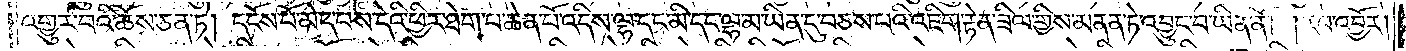འགྱུར་བའི་ཆོས་ཅན་ཏེ། དངོས་པོ་མེད་པས་དེའི་ཕྱིར་ཐེག་པ་ཆེན་པོ་འདིས་ལྷ་དང་མི་དང་ལྷ་མ་ཡིན་དུ་བཅས་པའི་འཇིག་རྟེན་ཟིལ་གྱིས་མནན་ཏེ་འབྱུང་བ་ཡིན་ནོ། །རབ་འབྱོར།
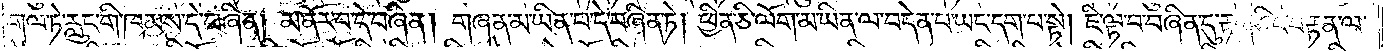གལ་ཏེ་རླུང་གི་ཁམས་དེ་བཞིན། མ་ནོར་བ་དེ་བཞིན། གཞན་མ་ཡིན་པ་དེ་བཞིན་ཏེ། ཕྱིན་ཅི་ལོག་མ་ཡིན་ལ་བདེན་པ་ཡང་དག་པ་སྟེ། ཇི་ལྟ་བ་བཞིན་དུ་རྟག་ཅིང་བརྟན་ལ་
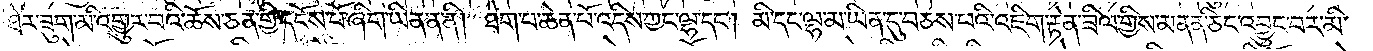ཐེར་ཟུག་མི་འགྱུར་བའི་ཆོས་ཅན་གྱི་དངོས་པོ་ཞིག་ཡིན་ན་ནི། ཐེག་པ་ཆེན་པོ་འདིས་ཀྱང་ལྷ་དང༌། མི་དང་ལྷ་མ་ཡིན་དུ་བཅས་པའི་འཇིག་རྟེན་ཟིལ་གྱིས་མནན་ཅིང་འབྱུང་བར་མི་
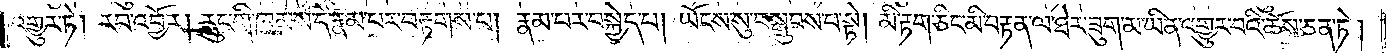འགྱུར་ཏེ། རབ་འབྱོར། རླུང་གི་ཁམས་དེ་རྣམ་པར་བརྟགས་པ། རྣམ་པར་བསྐྱེད་པ། ཡོངས་སུ་བསྒྲུབས་པ་སྟེ། མི་རྟག་ཅིང་མི་བརྟན་ལ་ཐེར་ཟུག་མ་ཡིན་འགྱུར་བའི་ཆོས་ཅན་ཏེ།
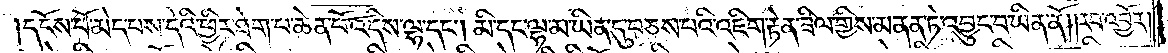དངོས་པོ་མེད་པས་དེའི་ཕྱིར་ཐེག་པ་ཆེན་པོ་འདིས་ལྷ་དང༌། མི་དང་ལྷ་མ་ཡིན་དུ་བཅས་པའི་འཇིག་རྟེན་ཟིལ་གྱིས་མནན་ཏེ་འབྱུང་བ་ཡིན་ནོ། །རབ་འབྱོར།
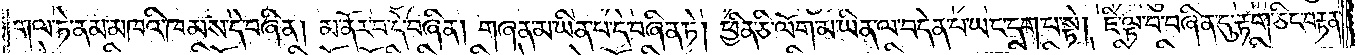གལ་ཏེ་ནམ་མཁའི་ཁམས་དེ་བཞིན། མ་ནོར་བ་དེ་བཞིན། གཞན་མ་ཡིན་པ་དེ་བཞིན་ཏེ། ཕྱིན་ཅི་ལོག་མ་ཡིན་ལ་བདེན་པ་ཡང་དག་པ་སྟེ། ཇི་ལྟ་བ་བཞིན་དུ་རྟག་ཅིང་བརྟན་
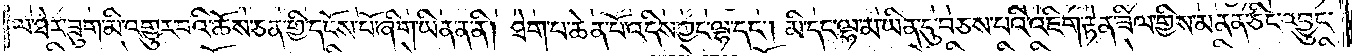ལ་ཐེར་ཟུག་མི་འགྱུར་བའི་ཆོས་ཅན་གྱི་དངོས་པོ་ཞིག་ཡིན་ན་ནི། ཐེག་པ་ཆེན་པོ་འདིས་ཀྱང་ལྷ་དང༌། མི་དང་ལྷ་མ་ཡིན་དུ་བཅས་པའི་འཇིག་རྟེན་ཟིལ་གྱིས་མནན་ཅིང་འབྱུང་
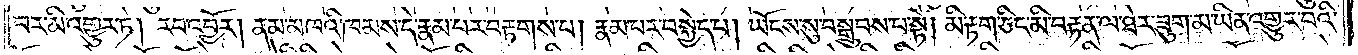བར་མི་འགྱུར་ཏེ། རབ་འབྱོར། ནམ་མཁའི་ཁམས་དེ་རྣམ་པར་བརྟགས་པ། རྣམ་པར་བསྐྱེད་པ། ཡོངས་སུ་བསྒྲུབས་པ་སྟེ། མི་རྟག་ཅིང་མི་བརྟན་ལ་ཐེར་ཟུག་མ་ཡིན་འགྱུར་བའི་
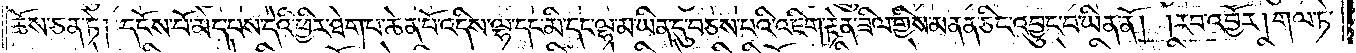ཆོས་ཅན་ཏེ། དངོས་པོ་མེད་པས་དེའི་ཕྱིར་ཐེག་པ་ཆེན་པོ་འདིས་ལྷ་དང་མི་དང་ལྷ་མ་ཡིན་དུ་བཅས་པའི་འཇིག་རྟེན་ཟིལ་གྱིས་མནན་ཅིང་འབྱུང་བ་ཡིན་ནོ། །རབ་འབྱོར། གལ་ཏེ་
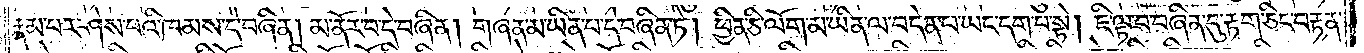རྣམ་པར་ཤེས་པའི་ཁམས་དེ་བཞིན། མ་ནོར་བ་དེ་བཞིན། གཞན་མ་ཡིན་པ་དེ་བཞིན་ཏེ། ཕྱིན་ཅི་ལོག་མ་ཡིན་ལ་བདེན་པ་ཡང་དག་པ་སྟེ། ཇི་ལྟ་བ་བཞིན་དུ་རྟག་ཅིང་བརྟན་
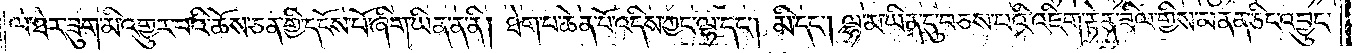ལ་ཐེར་ཟུག་མི་འགྱུར་བའི་ཆོས་ཅན་གྱི་དངོས་པོ་ཞིག་ཡིན་ན་ནི། ཐེག་པ་ཆེན་པོ་འདིས་ཀྱང་ལྷ་དང༌། མི་དང༌། ལྷ་མ་ཡིན་དུ་བཅས་པའི་འཇིག་རྟེན་ཟིལ་གྱིས་མནན་ཅིང་འབྱུང་
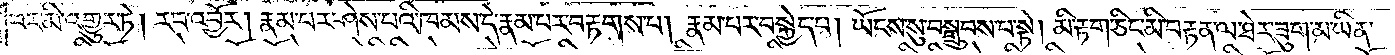བར་མི་འགྱུར་ཏེ། རབ་འབྱོར། རྣམ་པར་ཤེས་པའི་ཁམས་དེ་རྣམ་པར་བརྟགས་པ། རྣམ་པར་བསྐྱེད་པ། ཡོངས་སུ་བསྒྲུབས་པ་སྟེ། མི་རྟག་ཅིང་མི་བརྟན་ལ་ཐེར་ཟུག་མ་ཡིན་
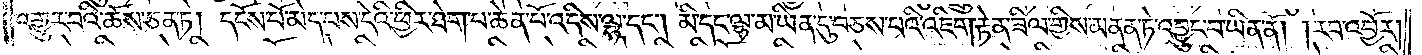འགྱུར་བའི་ཆོས་ཅན་ཏེ། དངོས་པོ་མེད་པས་དེའི་ཕྱིར་ཐེག་པ་ཆེན་པོ་འདིས་ལྷ་དང༌། མི་དང་ལྷ་མ་ཡིན་དུ་བཅས་པའི་འཇིག་རྟེན་ཟིལ་གྱིས་མནན་ཏེ་འབྱུང་བ་ཡིན་ནོ། །རབ་འབྱོར།
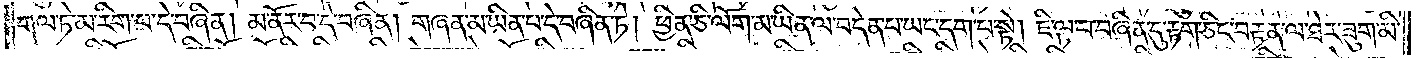གལ་ཏེ་མ་རིག་པ་དེ་བཞིན། མ་ནོར་བ་དེ་བཞིན། གཞན་མ་ཡིན་པ་དེ་བཞིན་ཏེ། ཕྱིན་ཅི་ལོག་མ་ཡིན་ལ་བདེན་པ་ཡང་དག་པ་སྟེ། ཇི་ལྟ་བ་བཞིན་དུ་རྟག་ཅིང་བརྟན་ལ་ཐེར་ཟུག་མི་
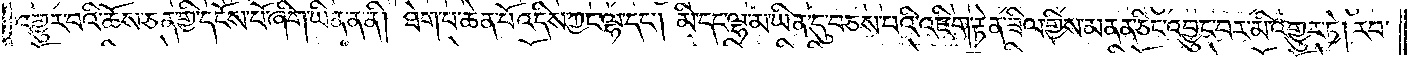འགྱུར་བའི་ཆོས་ཅན་གྱི་དངོས་པོ་ཞིག་ཡིན་ན་ནི། ཐེག་པ་ཆེན་པོ་འདིས་ཀྱང་ལྷ་དང༌། མི་དང་ལྷ་མ་ཡིན་དུ་བཅས་པའི་འཇིག་རྟེན་ཟིལ་གྱིས་མནན་ཅིང་འབྱུང་བར་མི་འགྱུར་ཏེ། རབ་
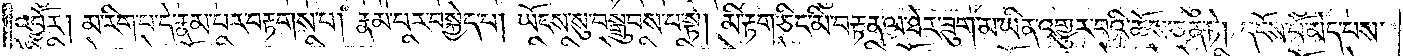འབྱོར། མ་རིག་པར་རྣམ་པར་བརྟགས་པ། རྣམ་པར་བསྐྱེད་པ། ཡོངས་སུ་བསྒྲུབས་པ་སྟེ། མི་རྟག་ཅིང་མི་བརྟན་ལ་ཐེར་ཟུག་མ་ཡིན་འགྱུར་བའི་ཆོས་ཅན་ཏེ། དངོས་པོ་མེད་པས་
